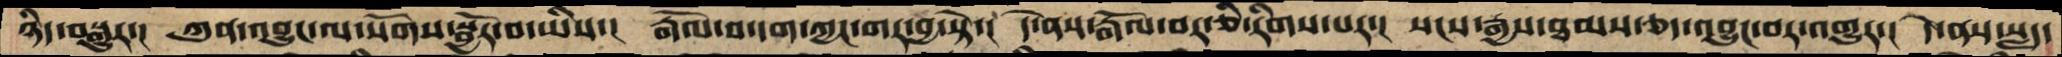ཉིད་བསྒྱུར་།  ཀུན་འབྱུང་ལ་སོགས་སྦྱོར་བ་ཡིས་།  རྒོལ་བ་དག་ཀྱང་གར་བྱ་སྟེ་།  དེ་ནས་རྒོལ་བར་ཅི་རིགས་པར་།  སངས་རྒྱས་ཐམས་ཅད་འབྱུང་བར་འགྱུར་།  དེ་ནས་སླད་
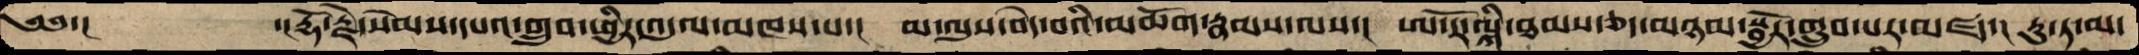༄༅་།     ་།རྡོ་རྗེ་སེམས་དཔའ་གྲུབ་ཕྱིར་འདུལ་མཁས་པ་།  མ་ལུས་བདེ་བའི་མཆོག་རྣམས་ལས་།  ཨ་རོ་ལྐི་ཐམས་ཅད་མཉམ་སྦྱོར་གྲུབ་པར་མཛད་།  ཏུ་ཏ་མ་
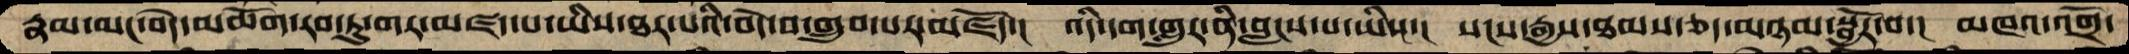རྣམ་མང་བདེ་མཆོག་རབ་ཏུ་གར་མཛད་པ་ཡིས་ཐར་པའི་བདེ་བ་གྲུབ་པར་མཛོད་།  འདི་དག་གླུར་ནི་བླངས་པ་ཡིས་།  སངས་རྒྱས་ཐམས་ཅད་མཉམ་སྦྱོར་བ་།  མཁའ་འགྲོ་
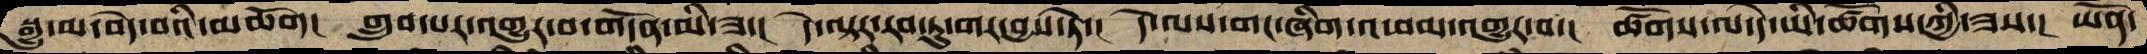སྒྱུ་མ་བདེ་བའི་མཆོག།  གྲུབ་པར་འགྱུར་བ་གདོན་མི་ཟ་།  དེ་ལྟར་རབ་ཏུ་གར་བྱས་ཏེ་།  དེ་ལས་གང་ཞིག་འཕམ་འགྱུར་བ་།  ཚོགས་ལ་དེ་ཡི་ཚོགས་ཀྱི་ཟས་།  ཡོན་
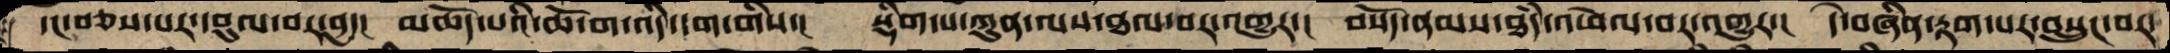དང་བཅས་པར་དབུལ་བར་བྱ་།  མཆོད་པའི་ཆོ་ག་འདི་དག་གིས་།  སྡིག་པ་ཀུན་ལས་ཐལ་བར་འགྱུར་།  བསོད་ནམས་ཐཾད་འཕེལ་བར་འགྱུར་།  དེ་བཞིན་རྟག་པར་བསྲུང་བར་
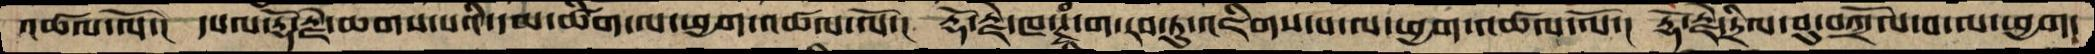འཚལ་ལོ་།  དཔལ་རྡོ་རྗེ་ཆགས་པའི་དམ་ཚིག་ལ་ཕྱག་འཚལ་ལོ་།  རྡོ་རྗེ་ཁ་ཊྭཱཾ་ག་རབ་ཏུ་འཇིགས་པ་ལ་ཕྱག་འཚལ་ལོ་།  རྡོ་རྗེ་དྲིལ་བུ་བཀྲོལ་བ་ལ་ཕྱག་
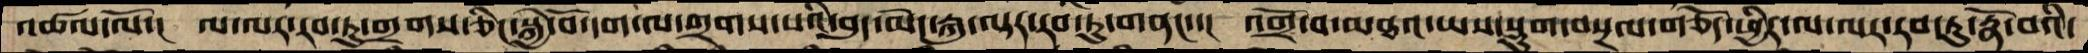འཚལ་ལོ་།  ལ་ལར་རབ་ཏུ་གྲགས་ཅིང་སྐྱེ་བོ་དག་ལ་གྲགས་པའི་བུད་མེད་རྐུ་ལྟར་རབ་ཏུ་གནང་་།  འགྲོ་བ་མཐའ་ཡས་སྡུག་བསྔལ་གཅོད་ཕྱིར་ལ་ལར་རབ་ཏུ་རྣོ་བའི་
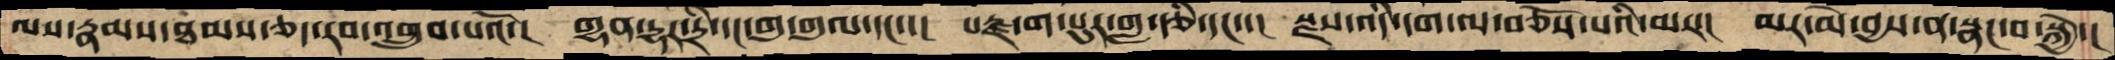ལས་རྣམས་ཐམས་ཅད་རབ་འགྲུབ་པའོ་།  གྷན་དྷར་དྲི་དང་གུ་གུལ་དང་་།  པརྫ་ག་པུར་གླ་རྩི་དང་་།  སྫས་འདི་དག་ལ་བཅོས་པའི་མར་།  མར་མེ་བྱས་ན་སྣང་བ་སྐྱེ་།
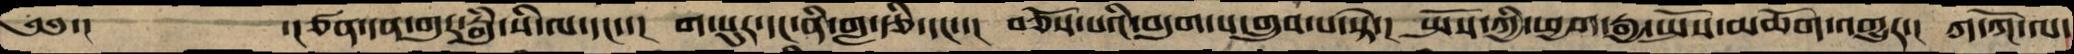༄༅་།    ་།ཙན་དན་གུར་རྒུཾ་སི་ལ་དང་་།  ག་པུར་དང་ནི་གླ་རྩི་དང་་།  བཅོས་པའི་བདུག་པ་གྲུབ་པ་སྟེ་།  སྤོས་ཀྱི་ཕྱག་རྒྱ་སྤོས་མཆོག་གྱུར་།  ཀ་ཀོ་ལ་
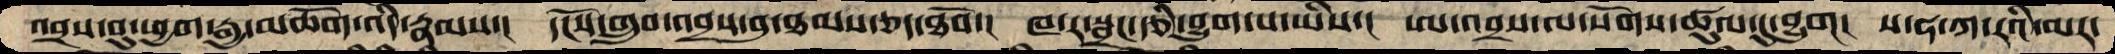འབྲས་བུ་ཕྱག་རྒྱ་མཆོག་འདི་རྣམས་།  དངོས་གྲུབ་འབྲས་བུ་ཐམས་ཅད་ཐོབ་།  ཁ་ར་སྦྲང་རྩི་བྱུག་པ་ཡིས་།  ཨ་འབྲས་ལ་སོགས་ཚུལ་དུ་བྱུག།  ས་ཧ་ཀ་རའི་མར་
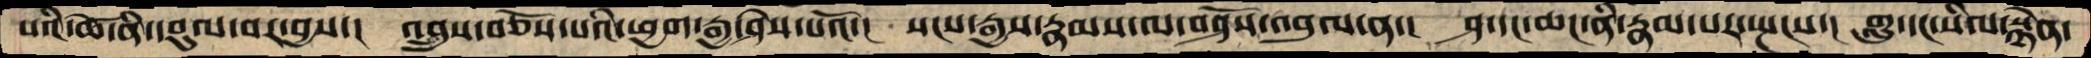པའི་ཆོ་ནི་དབུལ་བར་བྱས་།  འབྲུས་བཅོས་པའི་ཕྱག་རྒྱ་ཤེས་པའོ་།  སངས་རྒྱས་རྣམས་ལ་བཤོས་འབུལ་ན་།  ཤ་དང་ཆང་ནི་རྣམ་པར་སྤངས་།  གླུ་དང་སིལ་སྙེན་
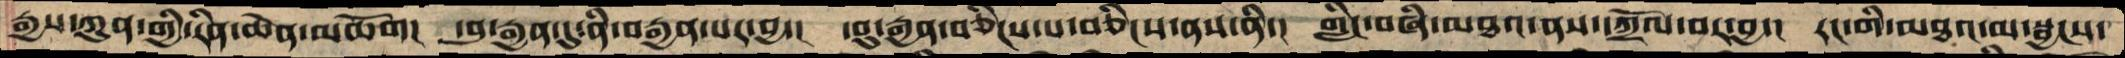རྒྱས་ཀུན་གྱི་རིན་ཆེན་མཆོག།  དབུ་རྒྱན་དུ་ནི་བརྒྱན་པར་བྱ་།  དབུ་རྒྱན་བཅིངས་པ་བཅིངས་ནས་ནི་།  གླིང་བཞི་མཐའ་ནས་དཀྲོལ་བར་བྱ་།  རང་གི་མཐའ་མ་སྦྱངས་
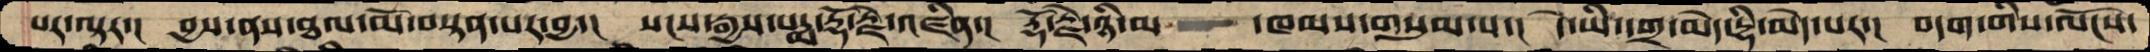པར་ལྟར་།  བྱས་ནས་ཐལ་མོ་བསྟན་པར་བྱ་།  སངས་རྒྱས་པདྨ་རྡོ་རྗེ་འཛིན་།  རྡོ་རྗེ་ཉི་མ   ་ཁམས་གསུམ་པ་།  དེ་ཡི་དགྲ་མེད་དྷི་མེད་པར་།  བདག་གིས་ལོངས་
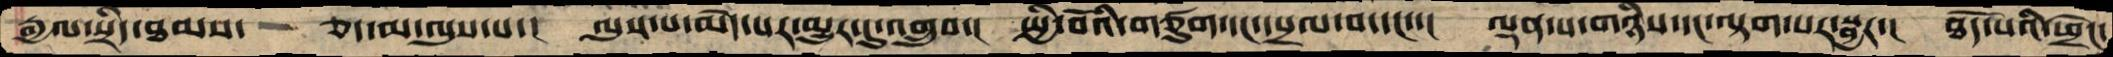རྒྱལ་སྲིད་ཐམས་  ཅད་མ་ལུས་པ་།  ལུས་པ་མེད་པར་མྱུར་དུ་འགྲུབ་།  སྤྱི་བོའི་གཙུག་དང་དཔྲལ་བ་དང་་།  ལྡན་པ་གཉིས་དང་ལྟག་པར་སྦྱར་།  ཐོད་པའི་ཕྲེང་
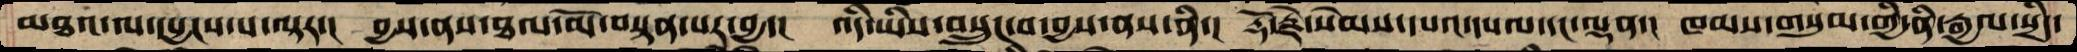མཐའ་ལ་དཔྱངས་པ་ལྟར་།  བྱས་ནས་ཐལ་མོ་བསྟན་པར་བྱ་།  འདི་ཡིས་བསྲུང་བ་བྱས་ནས་ནི་།  རྡོ་རྗེ་སེམས་དཔའ་དཔལ་དང་ལྡན་།  ཁམས་གསུམ་གྱི་ནི་རྒྱལ་སྲིད་
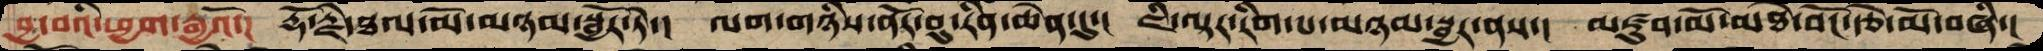བྱ་བའི་ཕྱག་རྒྱའོ་།  རྡོ་རྗེ་ཐལ་མོ་མཉམ་སྦྱོར་ཏེ་།  ལག་གཉིས་ནོར་བུ་རིན་ཆེན་དུ་།  ཇི་ལྟར་རིག་པ་མཉམ་སྦྱར་ནས་།  མཛུབ་མོ་མཐེ་བེང་རྩེ་མོ་བཞི་།
